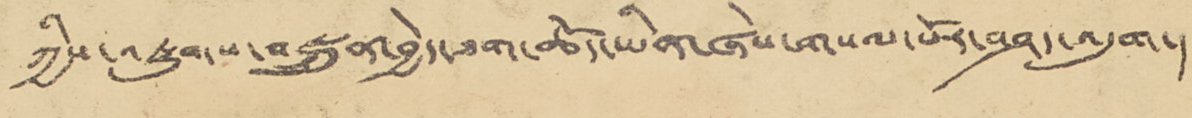ཀྱིས་འཛུགས་བསྐྲུན་བྱེད་ཐག་ཆོད་ཡིན་ཞེས་གསལ་པོར་བཤད་འདུག་།
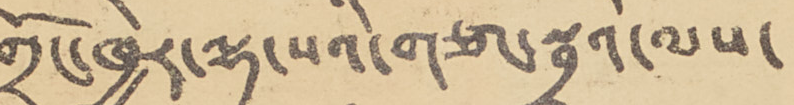གྲོང་ཁྱེར་ལྷ་སའི་གཙང་སྦྲའི་ལས་
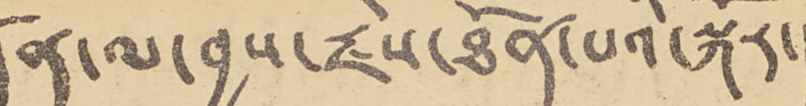དོན་ལ་བྱས་རྗེས་ཐོན་པའི་སྐོར་།
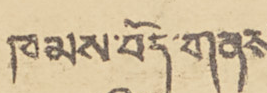ཁམས་བོད་གནས་
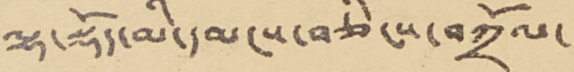ལྷ་སྡོད་མི་དམངས་བཅིངས་བཀྲོལ་
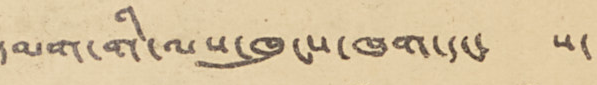དམག་གི་ལས་ཁུངས་ཁག་དང་ ས་
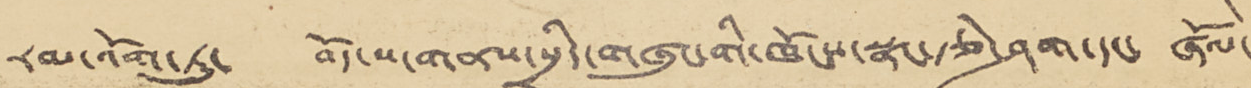རམ་འོག་ཏུ་ བོད་ས་གནས་སྲིད་གཞུང་གི་ཁོངས་སྣང་རྩེ་ཤག་དང་ ཞོལ་
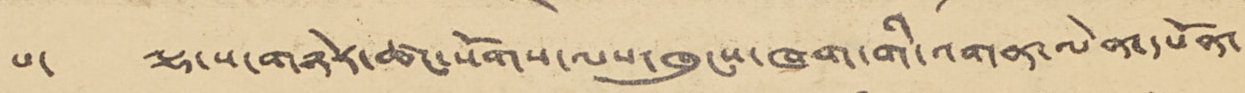པ་ ལྷ་ས་གཉེན་ཚང་སོགས་ལས་ཁུངས་ཁག་གི་འགན་ལེན་དཔོན་
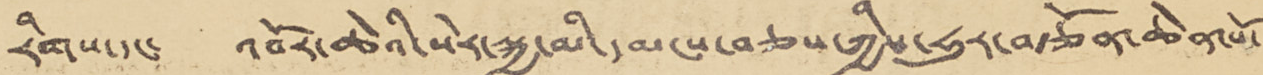རིགས་དང་ འབོར་ཆེའི་སེར་སྐྱ་མི་དམངས་བཅས་ཀྱིས་ཧུར་བརྩོན་ཆེན་པོ་
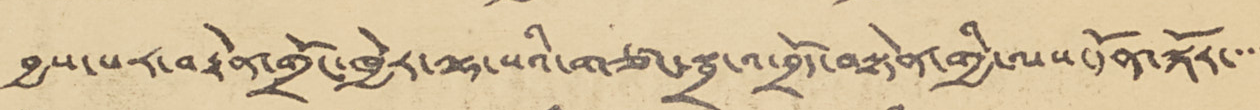བྱས་པར་བརྟེན་གྲོང་ཁྱེར་ལྷ་སའི་གཙང་སྦྲ་འཕྲོད་བསྟེན་གྱི་ལས་དོན་སྐོར་་་་
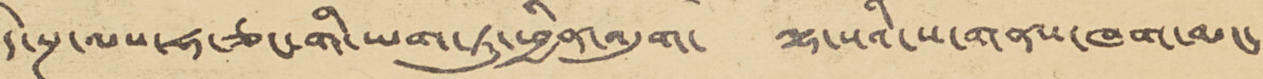དེ་སྔ་ལས་ཧ་ཅང་གི་ཡག་ཏུ་ཕྱིན་འདུག་ ལྷ་སའི་ས་གནས་ཁག་མང་
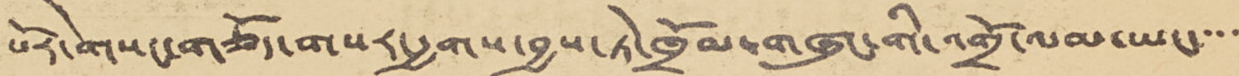པོར་གསང་གཅོད་གསར་རྒྱགས་བྱས་ཏེ་ཁྲོམ་གཞུང་གི་འགྲོ་ལམ་ཡང་་་་་
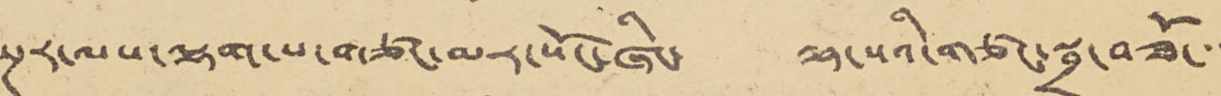སྔར་ལས་ལྷག་པ་གཙང་མར་སོང་ཞིང་ ལྷ་སའི་གཙང་སྦྲ་བཟོ་་་
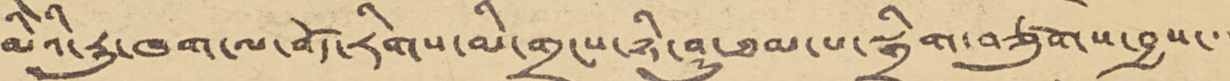མིའི་རུ་ཁག་ལ་བོད་རིགས་མི་གྲངས་ཉི་ཤུ་ཐམམ་པ་སྒྲིག་བཙུགས་བྱས་་་་
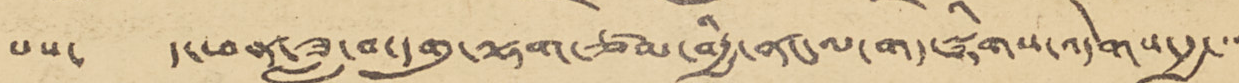པས་ ད་ཕན་ཟླ་བ་དགུ་ལྷག་ཙམ་གྱི་ནང་ལ་གད་སྙིགས་འདེགས་རྒྱ་་་་
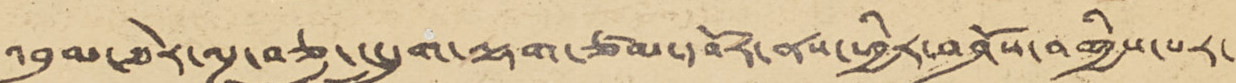འབུམ་ཐེར་ལྔ་བཅུ་ང་དྲུག་ལྷག་ཙམ་དབོར་ནས་ཕྱིར་བཤོས་བགྱིས་པར་
